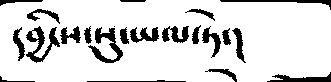དབྱིངས་སུ་ཡལ་ཏེ་།
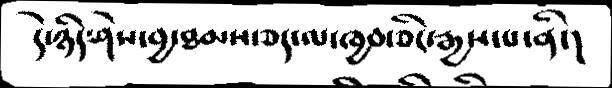དེ་ཉིད་ཤེས་བྱ་ཐམས་ཅད་ལ་ཁྱབ་ཅིང་རྒྱས་པ་ནི་།
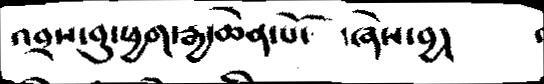འབྲས་བུ་ཕྱག་རྒྱ་ཆེན་པོ་  ཞེས་བྱ།
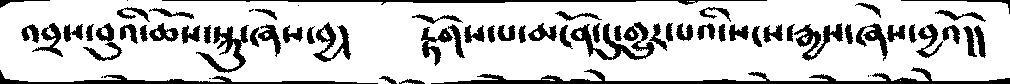འབྲས་བུའི་ཆོས་སྐུ་ཞེས་བྱ།   རྟོགས་པ་མངོན་དུ་གྱུར་པའི་སངས་རྒྱས་ཞེས་བྱའོ།།
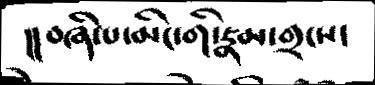།།བཞི་པ་མིང་གི་རྣམ་གྲངས་
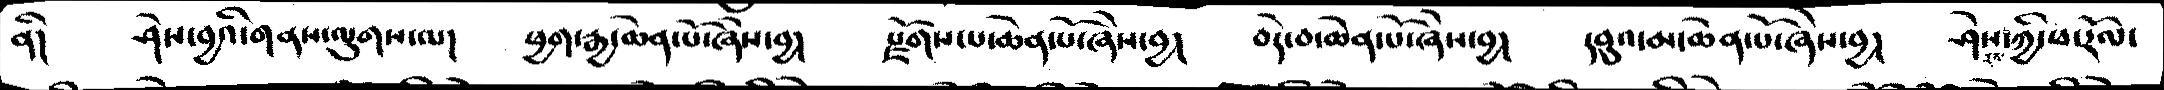ནི།   ཤེས་བྱའི་གནས་ལུགས་ལ།   ཕྱག་རྒྱ་ཆེན་པོ་ཞེས་བྱ།   རྫོགས་པ་ཆེན་པོ་ཞེས་བྱ།   བདེ་བ་ཆེན་པོ་ཞེས་བྱ།   དབུའ་མ་ཆེན་པོ་ཞེས་བྱ།   ཤེས་རབ་ཀྱི་ཕ་རོལ་
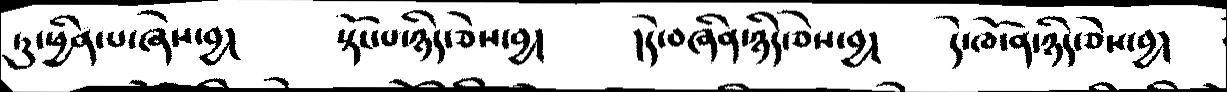ཏུ་ཕྱིན་པ་ཞེས་བྱ།   སྟོང་པ་ཉིད་ཅེས་བྱ།   །དེ་བཞིན་ཉིད་ཅེས་བྱ།   དེ་ཁོ་ན་ཉིད་ཅེས་བྱ།
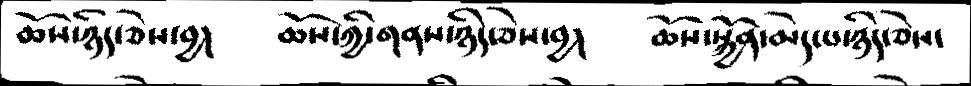ཆོས་ཉིད་ཅེས་བྱ།   ཆོས་ཀྱི་གནས་ཉིད་ཅེས་བྱ།   ཆོས་སྐྱོན་མེད་པ་ཉིད་ཅེས་
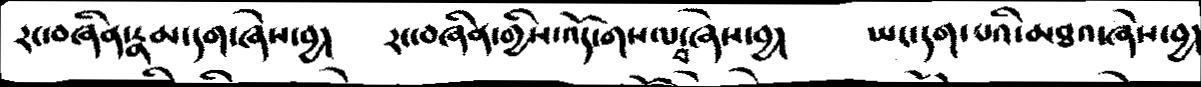རང་བཞིན་རྣམ་དག་ཞེས་བྱ།   རང་བཞིན་གྱིས་འོད་གསལ་བ་ཞེས་བྱ།   ཡང་དག་པའི་མཐའ་ཞེས་བྱ།
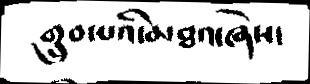གྲུབ་པའི་མཐའ་ཞེས་
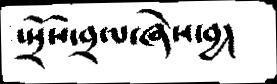སྤྲོས་བྲལ་ཞེས་བྱ།
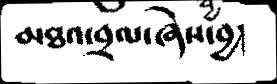མཐའ་བྲལ་ཞེས་བྱ།
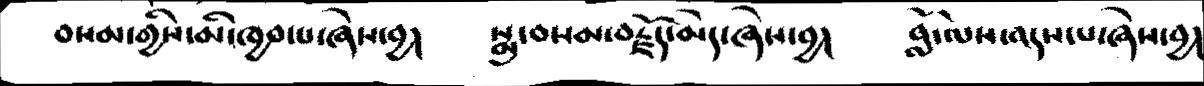བསམ་གྱིས་མི་ཁྱབ་པ་ཞེས་བྱ།   སྨྲ་བསམ་བརྗོད་མེད་ཞེས་བྱ།   བློ་ལས་འདས་པ་ཞེས་བྱ།
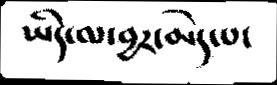ཡིད་ལ་བྱར་མེད་པ་
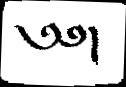༄༅།
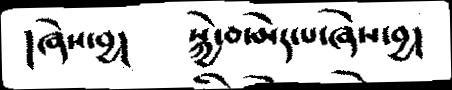།ཞེས་བྱ།   སྐྱེ་བ་མེད་པ་ཞེས་བྱ།
